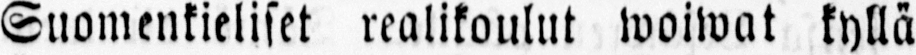Suomenkieliset realikoulut woiwat kyllä
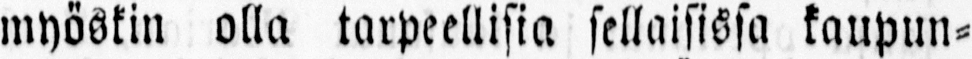myöskin olla tarpeellisia sellaisissa kaupun-
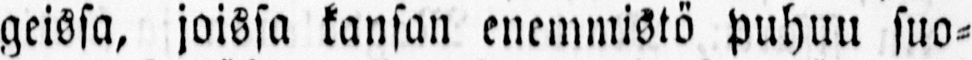geissa, joissa kansan enemmistö puhuu suo-
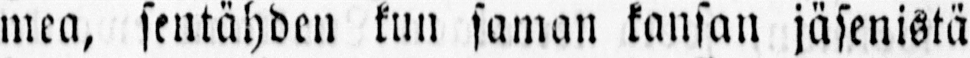mea, sentähden kun saman kansan jäsenistä
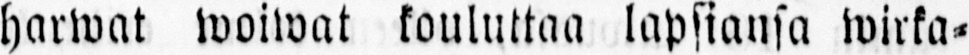harwat woiwat kouluttaa lapsiansa wirka-
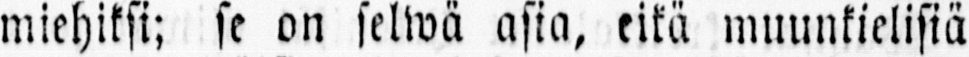miehiksi; se on selwä asia, eikä muunkielisiä
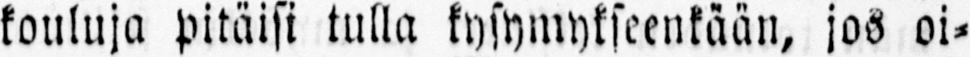kouluja pitäisi tulla kysymykseenkään, jos oi-
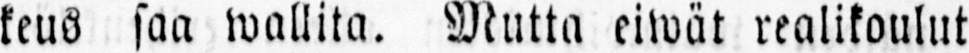keus saa wallita. Mutta eiwät realikoulut
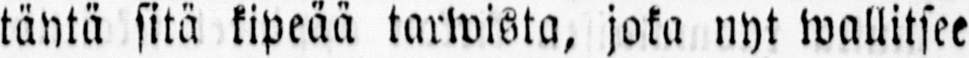täytä sitä kipeää tarwista, joka nyt wallitsee
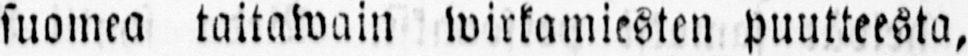suomea taitawain wirkamiesten puutteesta,
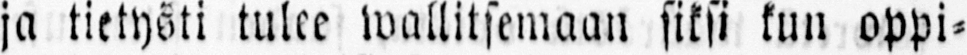ja tietysti tulee wallitsemaan siksi kun oppi-
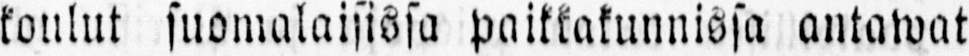koulut suomalaisissa paikkakunnissa antawat
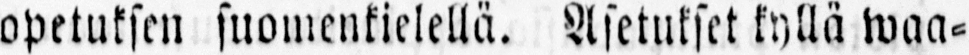opetuksen suomenkielellä. Asetukset kyllä waa-
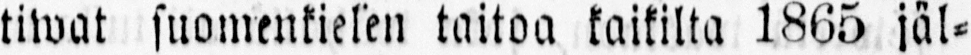liwat suomenkielen taitoa kaikilta 1865 jäl-
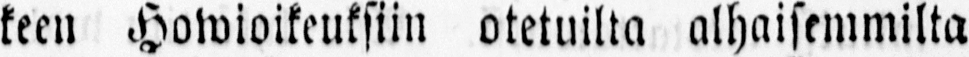keen Howioikeuksiin otetuilta alhaisemmilta
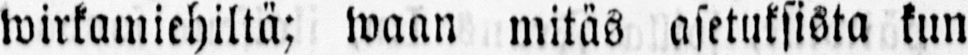wirkamiehiltä; waan mitäs asetuksista kun
